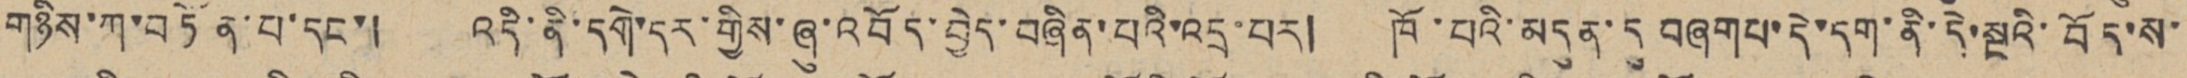གཉིས་ཀ་བཏོན་པ་དང་། འདི་ནི་དགེ་དར་གྱིས་ཞུ་འབོད་བྱེད་བཞིན་པའི་འདྲ་པར། ཁོ་པའི་མདུན་དུ བཞུགས་དེ་དག་ནི་དེ་སྔའི་བོད་ས་
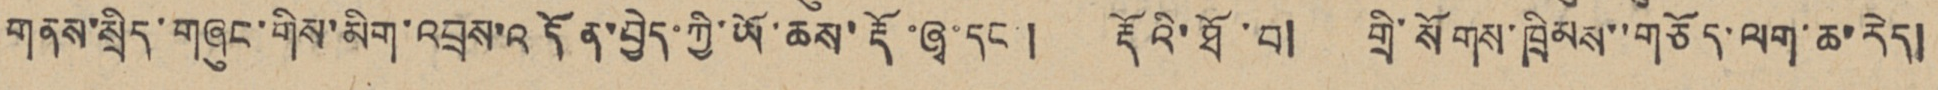གནས་སྲིད་གཞུང་གིས་མིག་འབྲས་འདོན་བྱེད་ཀྱི་ཡོ་ཆས་རྡོ་ཞྭ་དང ། རྡོའི་ཐོ་བ། གྲི་སོགས་ཁྲིམས་་གཅོད་ལག་ཆ་རེད།
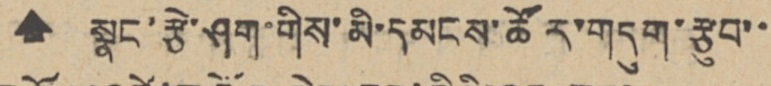🠹 སྣང་རྩེ་ཤག་གིས་མི་དམངས་ཚོར་གདུག་རྩུབ་་
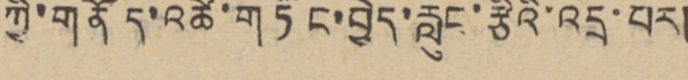ཀྱི་གནོད་འཚེ་གཏོང་བྱེད་རླུང་རྩིའི་འདྲ་པར།
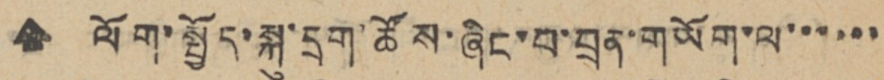🠹 ལོག་སྤྱོད་སྐུ་དྲག་ཚོས་ཞིང་པ་བྲན་གཡོག་ལ་་་་་་
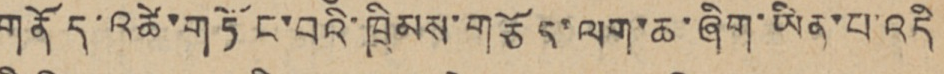གནོད་འཚེ་གཏོང་བའི་ཁྲིམས་གཅོད་ལག་ཆ་ཞིག་ཡིན་པ་འདི
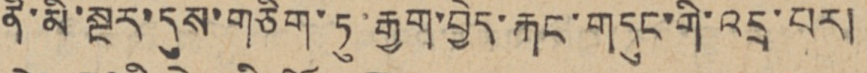ནི་མི་སྔར་དུས་གཅིག་ཏུ་རྒྱག་བྱེད་རྐང་གདུང་གི་འདྲ་པར།
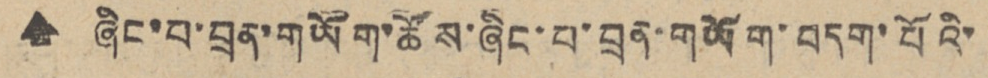🠹 ཞིང་པ་བྲན་གཡོག་ཚོས་ཞིང་པ་བྲན་གཡོག་བདག་པོའི་
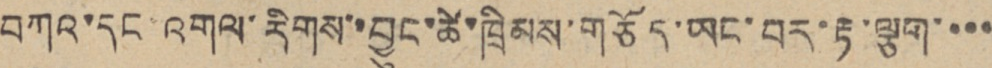བཀའ་དང་འགལ་རིགས་བྱུང་ཚེ་ཁྲིམས་གཅོད་ཡང་བར་རྟ་ལྕག་་་་
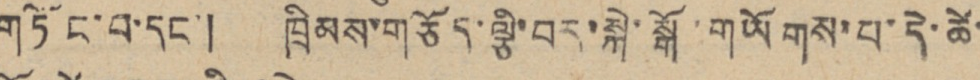གཏོང་བ་དང་། ཁྲིམས་གཅོད་ལྕི་བར་སྐེ་སྒོ་གཡོགས་པ་དེ་ཚེ་
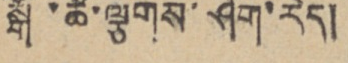སྒོ་ཚེ་ལྕགས་ཤིག་རེད།
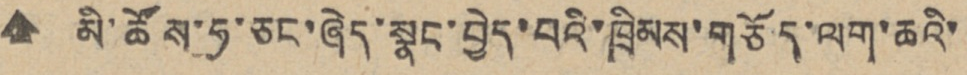🠹 མི་ཚོས་ཧ་ཅང་ཞེད་སྣང་བྱེད་པའི་ཁྲིམས་གཅོད་ལག་ཆའི་
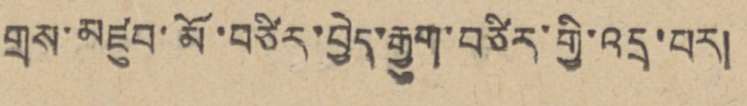གྲས་མཛུབ་མོ་བཙིར་བྱེད་རྒྱུག་བཙིར་གྱི་འདྲ་པར།
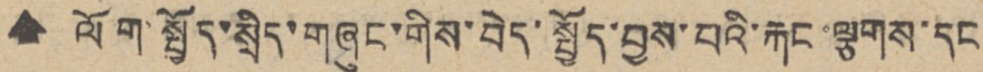🠹 ལོག་སྤྱོད་སྲིད་གཞུང་གིས་བེད་སྤྱོད་བྱས་པའི་རྐང་ལྕགས་དང
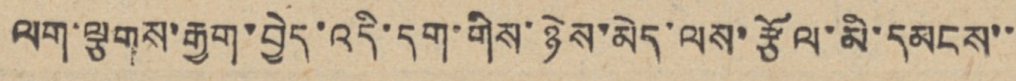ལག་ལྕགས་རྒྱག་བྱེད་འདི་དག་གིས་ཉེས་མེད་ལས་རྩོལ་མི་དམངས་་
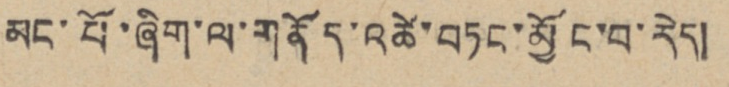མང་པོ་ཞིག་ལ་གནོད་འཚེ་བཏང་མྱོང་བ་རེད།
